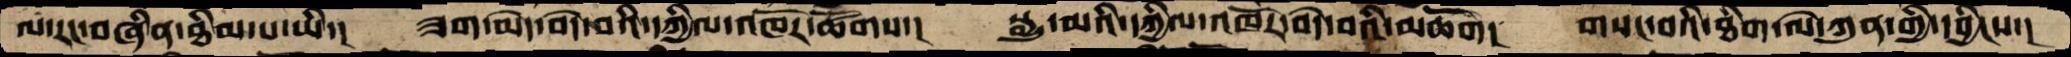ལ་རང་བཞིན་ཐིམ་པ་ཡི་།   ཟག་མེད་བདེ་བའི་དཀྱིལ་འཁོར་ཚོགས་།   སྒྱུ་མའི་དཀྱིལ་འཁོར་བདེ་བའི་མཆོག།  གསང་བའི་ཐིག་ལེ་ཀུན་གྱི་དབྱིངས་།
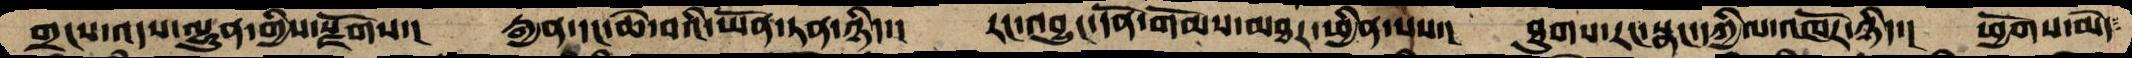གྲངས་འདས་ལྷུན་གྱིས་སྫོགས་།  རྒྱན་དང་ཆེ་བའི་ཡོན་ཏན་ཉིད་།   རང་འབྱུང་དོན་གོམས་མཐར་ཕྱིན་པས་།  ཐུགས་རང་སྣང་དཀྱིལ་འཁོར་ཉིད་།  ཕྱོགས་མེད་
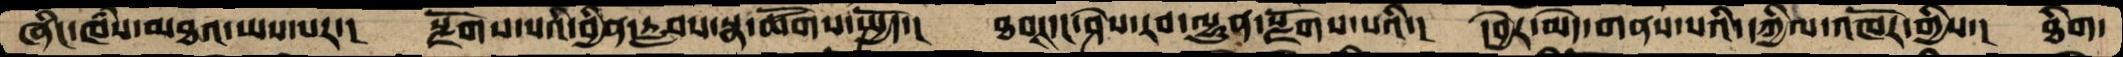ཞིང་ཁཾས་མཐའ་ཡས་པར་།   སྫོགས་པའི་བྱིན་རླབས་སྣ་ཚོགས་སྤྱོད་།  ཐབ་དང་ཤེས་རབ་ལྷུན་སྫོགས་པའི་།  དབྱེར་མེད་གནས་པའི་དཀྱིལ་འཁོར་གྱིས་།  ཐིག་
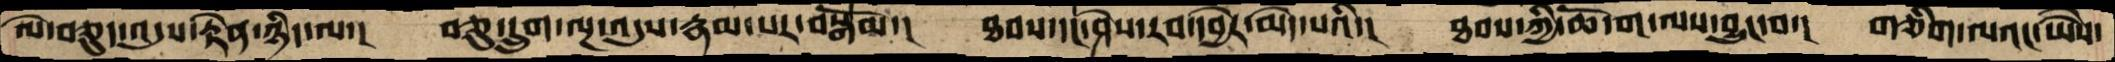ལེ་བཅུད་འདུས་རྟེན་ཉིད་ལ་།  བཅུ་དྲུག་ལྔ་འདུས་རྣམ་པར་བསྒོམ་།  ཐབས་དང་ཤེས་རབ་དབྱེར་མེད་པའི་།  ཐབས་ཀྱི་ཆོ་ག་ལས་བྱུང་བ་།  གཅིག་ལའང་ཡཻས་
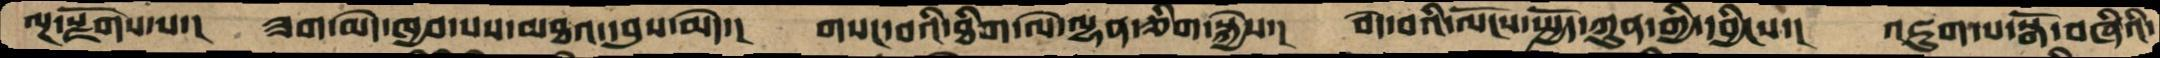ལྔ་སྫོགས་པ་།  ཟག་མེད་ཁྱབ་པས་མཐའ་དབུས་མེད་།  གསང་བའི་ཐིག་ལེ་ལྷན་ཅིག་སྐྱེས་།  བདེ་བའི་ལོངས་སྤྱོད་ཀུན་གྱི་དབྱིངས་།  འཇུག་པ་སྒོ་བཞིའི་
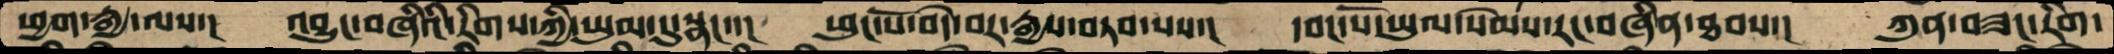ཕྱག་རྒྱ་ལས་།  འབྱུང་བཞིའི་རིགས་ཀྱི་ཡུམ་དུ་སྣང་་།  ཕུང་པོ་བདེ་བར་རྒྱས་བཏབ་པས་།  དབང་པོ་ཡུལ་སེམས་རང་བཞིན་ཐབས་།  ཀུན་བཟང་རིག་
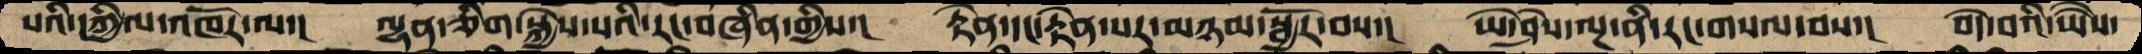པའི་དཀྱིལ་འཁོར་ལ་།  ལྷན་ཅིག་སྐྱེས་པའི་རང་བཞིན་གྱིས་།  རྟེན་དང་རྟེན་པར་མཉམ་སྦྱོར་བས་།  ཡེ་ཤེས་ལྔ་ནི་རང་གསལ་བས་།  བདེ་བའི་ཡཻས་
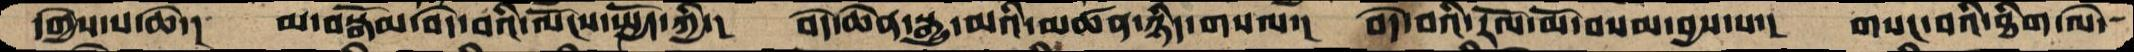དགྱེས་པ་ཆེ་།  མ་བསྒོམ་བདེ་བའི་ལོངས་སྤྱོད་ཀྱི་།  བདེ་ཆེན་སྒྱུ་མའི་མཚན་ཉིད་གསལ་།  བདེ་བའི་རོལ་མོ་བསམ་བྱས་པ་།  གསང་བའི་ཐིག་ལེ་
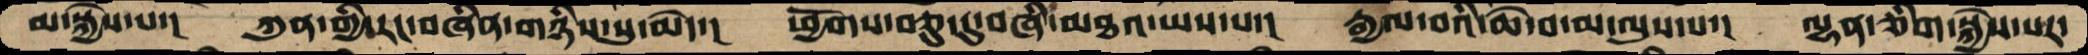མ་སྐྱེས་པ་།  ཀུན་གྱི་རང་བཞིན་གཉིས་སུ་མེད་།  ཕྱོགས་བཅུ་དུ་བཞི་མཐའ་ཡས་པ་།  རྒྱལ་བའི་ཆེ་བ་མ་ལུས་པ་།  ལྷན་ཅིག་སྐྱེས་པར་
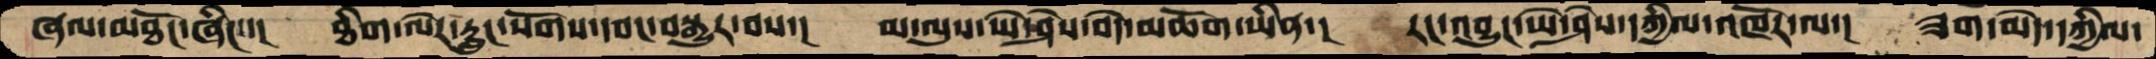ཞལ་མཐོང་ཞིང་་།  ཐིག་ལེར་རླུང་སོགས་དབང་བསྒྱུར་བས་།  མ་ལུས་ཡེ་ཤེས་བདེ་མཆོག་ཡིན་།  རང་འབྱུང་ཡེ་ཤེས་དཀྱིལ་འཁོར་ལ་།  ཟག་མེད་དཀྱིལ་
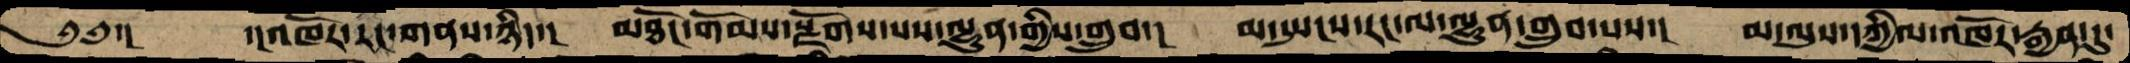༄༅་།   ་།འཁོར་རང་གནས་ཉིད་།  མཐོང་གོམས་སྫོགས་པས་ལྷུན་གྱིས་གྲུབ་།  མ་སྤངས་རང་ལ་ལྷུན་གྲུབ་པས་།  མ་ལུས་དཀྱིལ་འཁོར་རྒྱན་དུ་
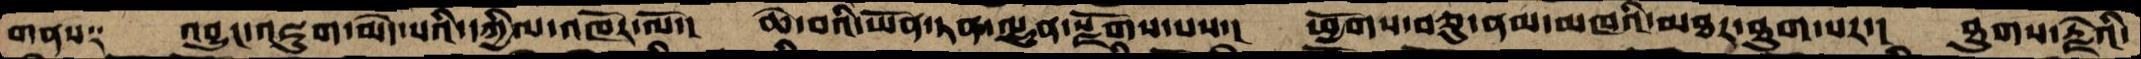གནས༑   འབྱུང་འཇུག་མེད་པའི་དཀྱིལ་འཁོར་ལོ་།  ཆེ་བའི་ཡོན་ཏན་ལྷུན་སྫོགས་པས་།  ཕྱོགས་བཅུ་ནམ་མཁའི་མཐར་ཐུག་པར་།  ཐུགས་རྗེའི་
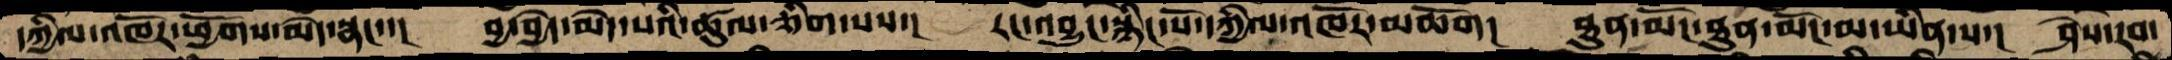དཀྱིལ་འཁོར་ཕྱོགས་མེད་སྣང་་།  བྱ་བྱེད་མེད་པའི་ཚུལ་ཅིག་པས་།  རང་འབྱུང་སྙིང་པོ་དཀྱིལ་འཁོར་མཆོག།  ཐུན་མོང་ཐུན་མོང་མ་ཡིན་པ་།  ཤེས་རབ་
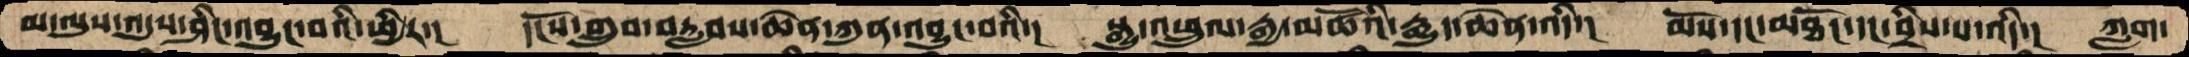མ་ལུས་འདུས་ཤིང་འབྱུང་བའི་ཕྱིར་།   དངོས་གྲུབ་བརླབས་ཆེན་ཀུན་འབྱུང་བའི་།   སྒྱུ་འཕྲུལ་རྒྱ་མཚོའི་རྒྱུད་ཆེན་འདི་།   མོས་དང་མཐོང་དང་བྲིས་པ་འདི་།  ཀླག་
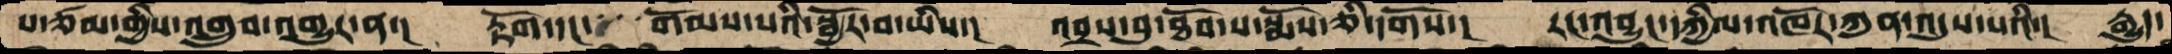པ་ཙམ་གྱིས་འགྲུབ་འགྱུར་ན་།   རྟོག་དང་་་་་གོོམས་པའི་སྦྱོར་བ་ཡིས་།   འབྲས་བུ་ཐོབ་པ་སྨོས་ཅི་དགོས་།   རང་བྱུང་དཀྱིལ་འཁོར་ཀུན་འདུས་པའི་།   རྒྱུད་
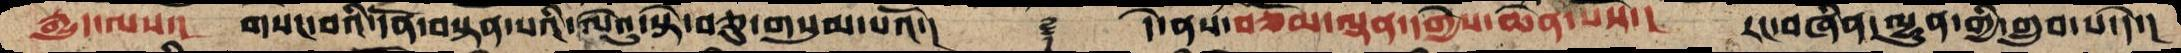རྒྱུད་ལས་།   གསང་བའི་དོན་བསྟན་པའི་ལེའུ་སྟེ་བཅུ་གསུམ་པའོ་།     ࿑    དེ་ནས་བཅོོམ་ལྡན་དགྱེས་ཆེན་པོས་།    རང་བཞིན་ལྷུན་གྱི་གྲུབ་པ་དེ་།
